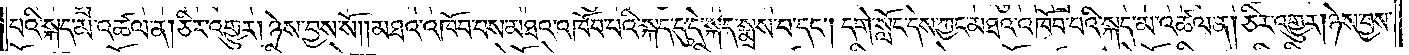པའི་སྐད་མ་འཚལ་ན། ཅིར་འགྱུར། ཉེས་བྱས་སོ། །མཐའ་འཁོབ་པས་མཐའ་འཁོབ་པའི་སྐད་དུ་དེ་སྐད་སྨྲས་པ་དང༌། དགེ་སློང་དེས་ཀྱང་མཐའ་འཁོབ་པའི་སྐད་མ་འཚལ་ན། ཅིར་འགྱུར། ཉེས་བྱས་
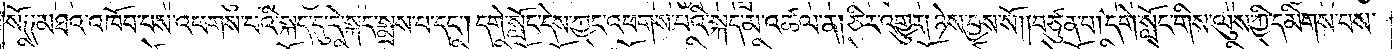སོ༑ ༑མཐའ་འཁོབ་པས་འཕགས་པའི་སྐད་དུ་དེ་སྐད་སྨྲས་པ་དང༌། དགེ་སློང་དེས་ཀྱང་འཕགས་པའི་སྐད་མ་འཚལ་ན། ཅིར་འགྱུར། ཉེས་བྱས་སོས། །བཙུན་པ། དགེ་སློང་གིས་ལུས་ཀྱི་དམིགས་པས་
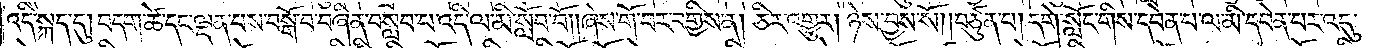འདི་སྐད་དུ། བདག་ཚེ་དང་ལྡན་པས་བསྒོ་བ་བཞིན་བསླབ་པ་འདི་ལ་མི་སློབ་བོ། །ཞེས་གོ་བར་བགྱིས་ན། ཅིར་འགྱུར། ཉེས་བྱས་སོ། །བཙུན་པ། དགེ་སློང་གིས་དབེན་པ་ལ་མི་དབེན་པར་འདུ་
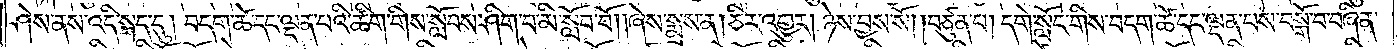ཤེས་ནས་འདི་སྐད་དུ། བདག་ཚེ་དང་ལྡན་པའི་ཚིག་གིས་སློབས་ཤིག་བ་མི་སློབ་བོ། །ཞེས་སྨྲས་ན། ཅིར་འགྱུར། ཉེས་བྱས་སོ། །བཙུན་པ། དགེ་སློང་གིས་བདག་ཚེ་དང་ལྡན་པས་བསྒོ་བ་བཞིན་
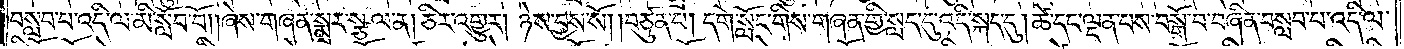བསླབ་པ་འདི་ལ་མི་སློབ་བོ། །ཞེས་གཞན་སྨྲར་སྩལ་ན། ཅིར་འགྱུར། ཉེས་བྱས་སོ། །བཙུན་པ། དགེ་སློང་གིས་གཞན་གྱི་སླད་དུ་འདི་སྐད་དུ། ཚེ་དང་ལྡན་པས་བསྒོ་བ་བཞིན་བསླབ་པ་འདི་ལ་
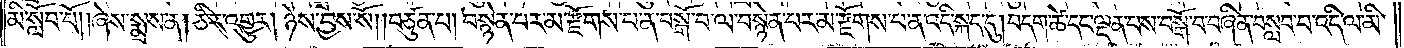མི་སློབ་བོ། །ཞེས་སྨྲས་ན། ཅིར་འགྱུར། ཉེས་བྱས་སོས། །བཙུན་པ། བསྙེན་པར་མ་རྫོགས་པ་ན་བསྒོ་བ་ལ་བསྙེན་པར་མ་རྫོགས་པ་ན་འདི་སྐད་དུ། བདག་ཚེ་དང་ལྡན་པས་བསྒོ་བ་བཞིན་བསླབ་པ་འདི་ལ་མི་
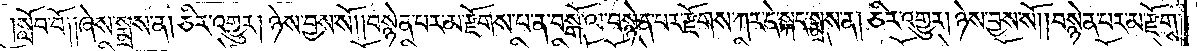།སློབ་བོ། །ཞེས་སྨྲས་ན། ཅིར་འགྱུར། ཉེས་བྱས་སོ། །བསྙེན་པར་མ་རྫོགས་པ་ན་བསྒོ་ལ་བསྙེན་པར་རྫོགས་ཀར་དེ་སྐད་སྨྲས་ན། ཅིར་འགྱུར། ཉེས་བྱས་སོས། །བསྙེན་པར་མ་རྫོགས་
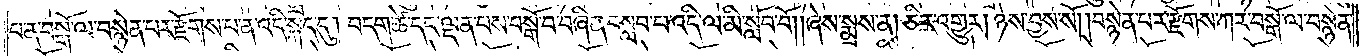པ་ན་བསྒོ་ལ་བསྙེན་པར་རྫོགས་པ་ན་འདི་སྐད་དུ། བདག་ཚེ་དང་ལྡན་པས་བསྒོ་བ་བཞིན་བསླབ་པ་འདི་ལ་མི་སློབ་བོ། །ཞེས་སྨྲས་ན། ཅིར་འགྱུར། ཉེས་བྱས་སོ། །བསྙེན་པར་རྫོགས་ཀར་བསྒོ་ལ་བསྙེན་
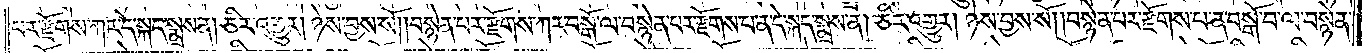པར་རྫོགས་ཀར་དེ་སྐད་སྨྲས་ན། ཅིར་འགྱུར། ཉེས་བྱས་སོ། །བསྙེན་པར་རྫོགས་ཀར་བསྒོ་ལ་བསྙེན་པར་རྫོགས་པ་ན་དེ་སྐད་སྨྲས་ན། ཅིར་འགྱུར། ཉེས་བྱས་སོས། །བསྙེན་པར་རྫོགས་པ་ན་བསྒོ་བ་ལ་བསྙེན་
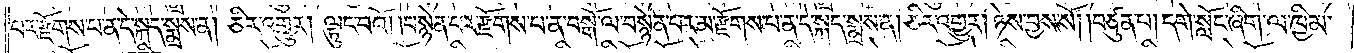པར་རྫོགས་པ་ན་དེ་སྐད་སྨྲས་ན། ཅིར་འགྱུར། ལྟུང་བའོ། །བསྙེན་པར་རྫོགས་པ་ན་བསྒོ་ལ་བསྙེན་པར་མ་རྫོགས་པ་ན་དེ་སྐད་སྨྲས་ན། ཅིར་འགྱུར། ཉེས་བྱས་སོ། །བཙུན་པ། དགེ་སློང་ཞིག་ལ་ཁྱིམ་
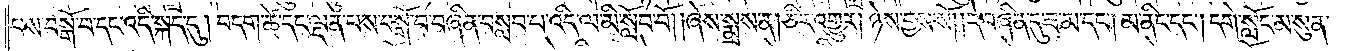པས་བསྒོ་བ་དང་འདི་སྐད་དུ། བདག་ཚེ་དང་ལྡན་པས་བསྒོ་བ་བཞིན་བསླབ་པ་འདི་ལ་མི་སློབ་བོ། །ཞེས་སྨྲས་ན། ཅིར་འགྱུར། ཉེས་བྱས་སོ། །དེ་བཞིན་དུ་ཟ་མ་དང༌། མ་ནིང་དང༌། དགེ་སློང་མ་སུན་
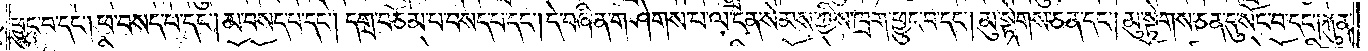ཕྱུང་བ་དང༌། ཕ་བསད་པ་དང༌། མ་བསད་པ་དང༌། དགྲ་བཅོམ་པ་བསད་པ་དང༌། དེ་བཞིན་གཤེགས་པ་ལ་ངན་སེམས་ཀྱིས་ཁྲག་ཕྱུང་བ་དང༌། མུ་སྟེགས་ཅན་དང༌། མུ་སྟེགས་ཅན་དུ་སོང་བ་དང༌། རྐུན་
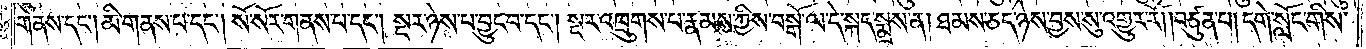གནས་དང༌། མི་གནས་པ་དང༌། སོ་སོར་གནས་པ་དང༌། སྔར་ཉེས་པ་བྱུང་བ་དང༌། སྔར་འཁྲུགས་པ་རྣམས་ཀྱིས་བསྒོ་ལ་དེ་སྐད་སྨྲས་ན། ཐམས་ཅད་ཉེས་བྱས་སུ་འགྱུར་རོ། །བཙུན་པ། དགེ་སློང་གིས་
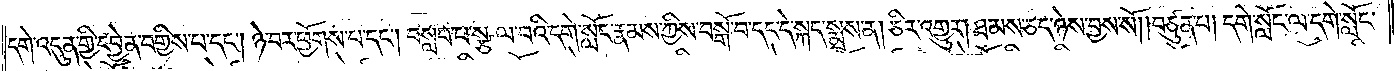དགེ་འདུན་གྱི་དབྱེན་བགྱིས་པ་དང༌། ཉེ་བར་ཕྱོགས་པ་དང༌། བསླབ་པ་སྩལ་པའི་དགེ་སློང་རྣམས་ཀྱིས་བསྒོ་བ་དང་དེ་སྐད་སྨྲས་ན། ཅིར་འགྱུར། ཐམས་ཅད་ཉེས་བྱས་སོ། །བཙུན་པ། དགེ་སློང་ལ་དགེ་སློང་
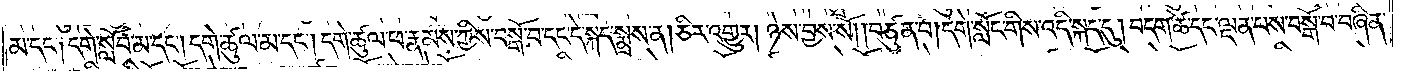མ་དང༌། དགེ་སློབ་མ་དང༌། དགེ་ཚུལ་མ་དང༌། དགེ་ཚུལ་ཕ་རྣམས་ཀྱིས་བསྒོ་བ་དང་དེ་སྐད་སྨྲས་ན། ཅིར་འགྱུར། ཉེས་བྱས་སོ། །བཙུན་པ། དགེ་སློང་གིས་འདི་སྐད་དུ། བདག་ཚེ་དང་ལྡན་པས་བསྒོ་བ་བཞིན་
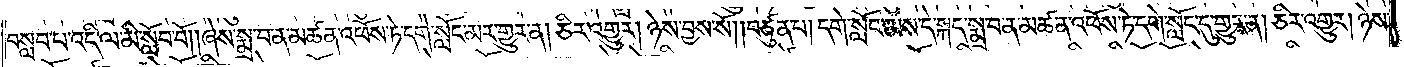བསླབ་པ་འདི་ལ་མི་སློབ་བོ། །ཞེས་སྨྲ་བ་ན་མཚན་འཕོས་ཏེ་དགེ་སློང་མར་གྱུར་ན། ཅིར་འགྱུར། ཉེས་བྱས་སོ། །བཙུན་པ། དགེ་སློང་མས་དེ་སྐད་སྨྲ་བ་ན་མཚན་འཕོས་ཏེ་དགེ་སློང་དུ་གྱུར་ན། ཅིར་འགྱུར། ཉེས་
